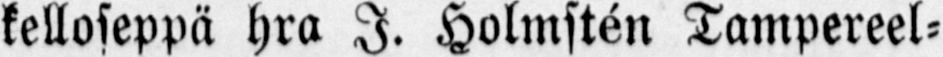kelloseppä hra I. Holmstén Tampereel-
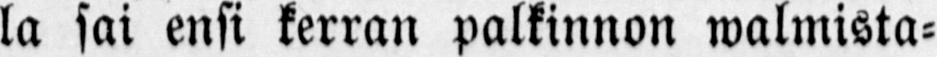la sai ensi kerran palkinnon walmista-
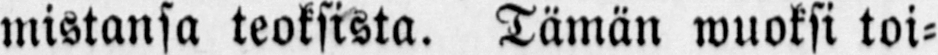mistansa teoksista. Tämän wuoksi toi-
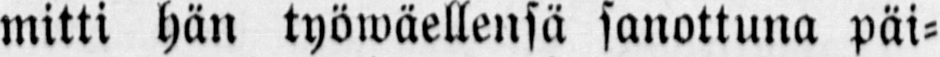mitti hän työwäellensä sanottuna pai-
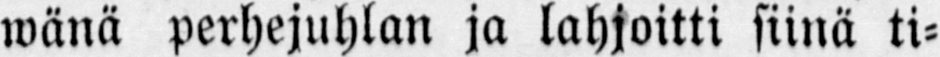wänä perhejuhlan ja lahjoitti siinä ti-
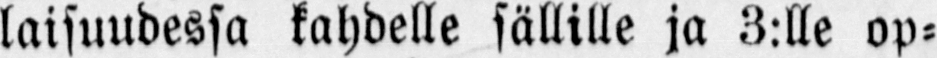laisuudessa kahdelle sällille ja 3:lle op-
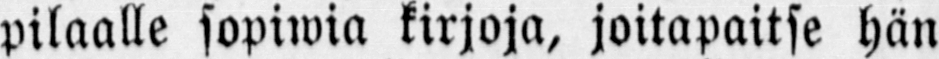pilaalle sopiwia kirjoja, joitapaitse hän
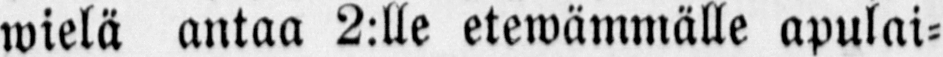wielä antaa 2:lle etewämmälle apulai-
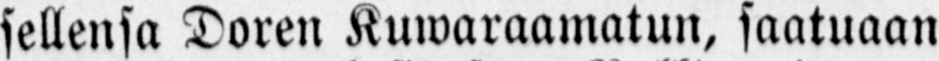sellensa Doren Kuwaraamatun, saatuaan
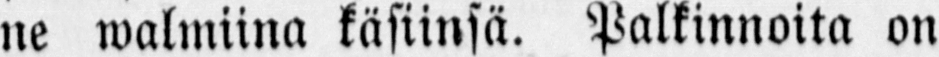ne walmiina käsiinsä. Palkinnotta on
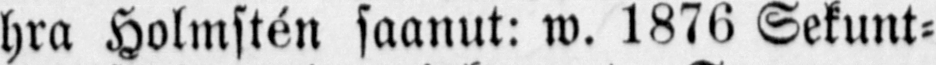hra Holmstén saanut: w. 1876 Sekunt-
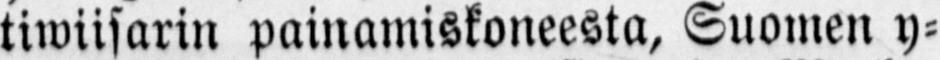tiwiisarin painamiskoneesta, Suomen y-
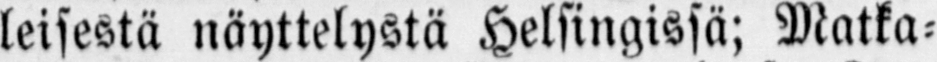leisestä näyttelystä Helsingissä; Matka-
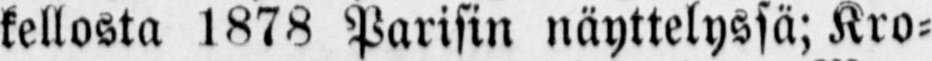kellosta 1878 Parisin näyttelyssä; Kro-
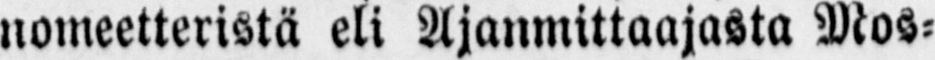nomeetteristä eli Ajanmittaajasta Mos-
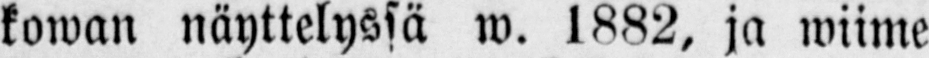kowan näyttelyssä w. 1882, ja wiime
